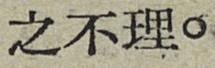之不理。
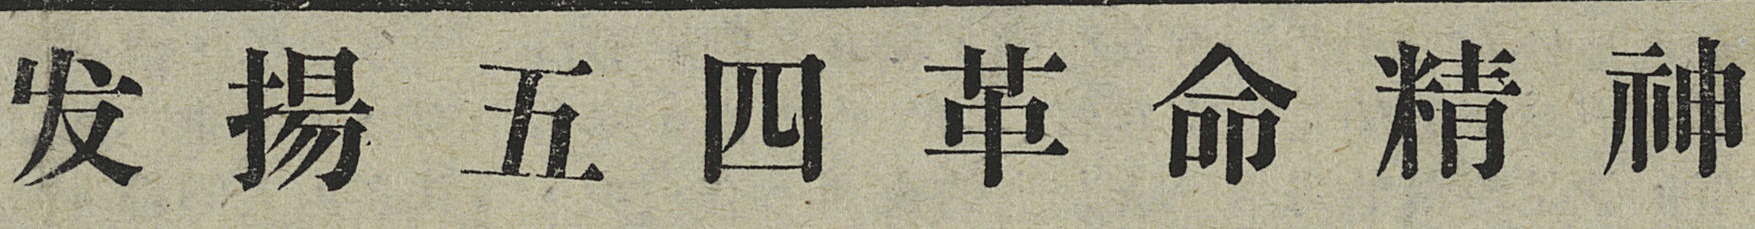发 揚 五 四 革 命 精 神
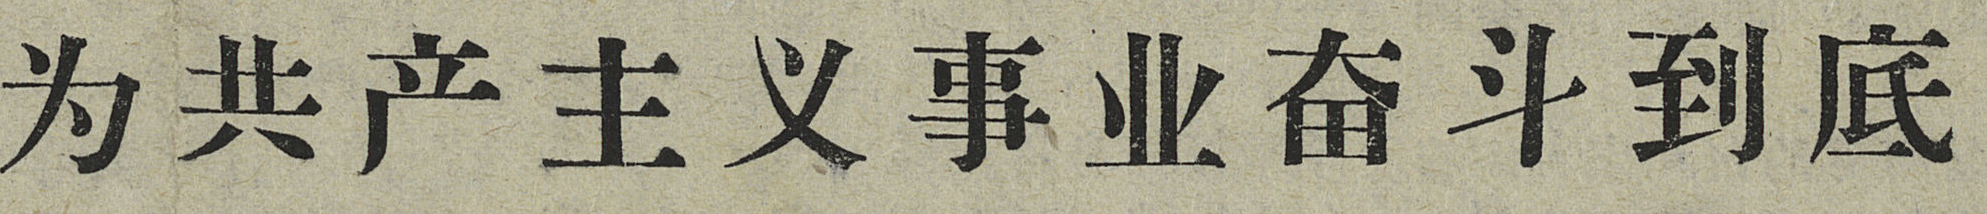为共产主义事业奋斗到底
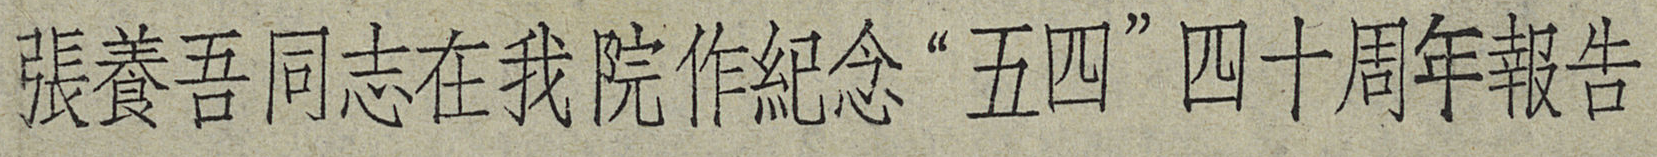張養吾同志在我院作紀念“五四”四十周年報告
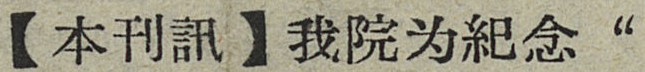【本刊訊】我院为紀念“
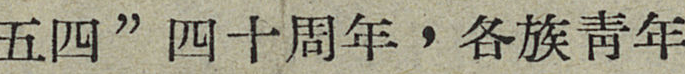五四”四十周年，各族靑年
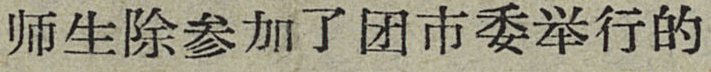师生除参加了团市委举行的
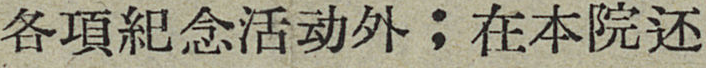各項紀念活动外；在本院还
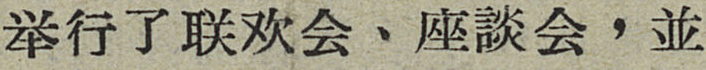举行了联欢会、座談会，並
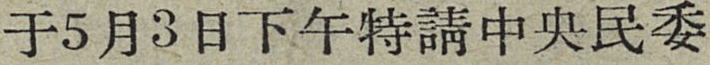于5月3日下午特請中央民委
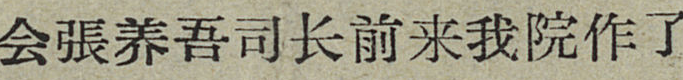会張养吾司长前来我院作了
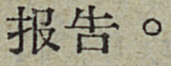报告。
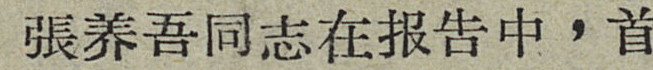張养吾同志在报告中，首
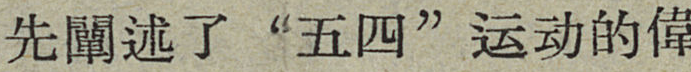先闡述了“五四”运动的偉
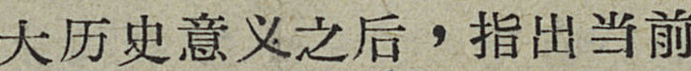大历史意义之后，指出当前
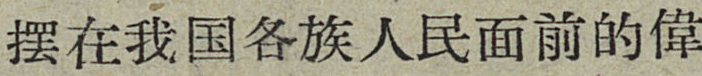摆在我国各族人民面前的偉
